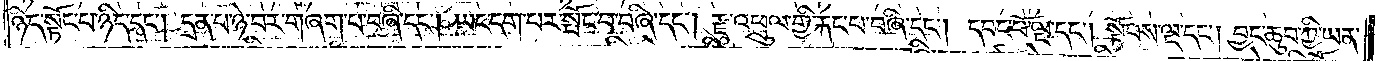ཉིད་སྟོང་པ་ཉིད་དང༌། དྲན་པ་ཉེ་བར་བཞག་པ་བཞི་དང༌། ཡང་དག་པར་སྤོང་བ་བཞི་དང༌། རྫུ་འཕྲུལ་གྱི་རྐང་བ་བཞི་དང༌། དབང་པོ་ལྔ་དང༌། སྟོབས་ལྔ་དང༌། བྱང་ཆུབ་ཀྱི་ཡན་
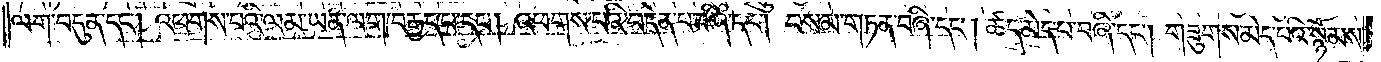ལག་བདུན་དང༌། འཕགས་པའི་ལམ་ཡན་ལག་བརྒྱད་པ་དང༌། འཕགས་པའི་བདེན་པ་བཞི་དང༌། བསམ་གཏན་བཞི་དང༌། ཚད་མེད་པ་བཞི་དང༌། གཟུགས་མེད་པའི་སྙོམས་
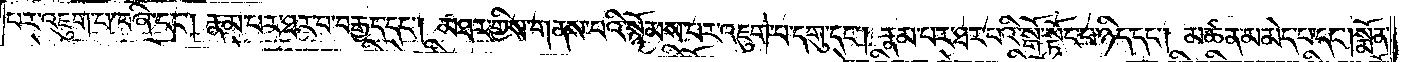པར་འཇུག་པ་བཞི་དང༌། རྣམ་པར་ཐར་པ་བརྒྱད་དང༌། མཐར་གྱིས་གནས་པའི་སྙོམས་པར་འཇུག་པ་དགུ་དང༌། རྣམ་པར་ཐར་པའི་སྒོ་སྟོང་པ་ཉིད་དང༌། མཚན་མ་མེད་པ་དང༌། སྨོན་
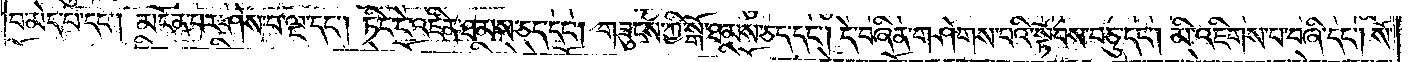པ་མེད་པ་དང༌། མངོན་པར་ཤེས་པ་ལྔ་དང༌། ཏིང་ངེ་འཛིན་ཐམས་ཅད་དང༌། གཟུངས་ཀྱི་སྒོ་ཐམས་ཅད་དང༌། དེ་བཞིན་གཤེགས་པའི་སྟོབས་བཅུ་དང༌། མི་འཇིགས་པ་བཞི་དང༌། སོ་
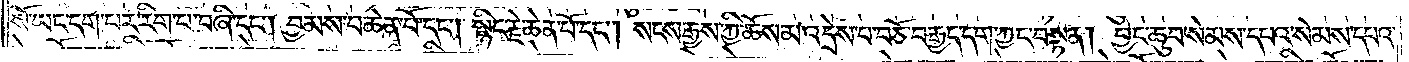སོ་ཡང་དག་པར་རིག་པ་བཞི་དང༌། བྱམས་པ་ཆེན་པོ་དང༌། སྙིང་རྗེ་ཆེན་པོ་དང༌། སངས་རྒྱས་ཀྱི་ཆོས་མ་འདྲེས་པ་བཅོ་བརྒྱད་དག་ཀྱང་བསྟན། བྱང་ཆུབ་སེམས་དཔའ་སེམས་དཔའ་
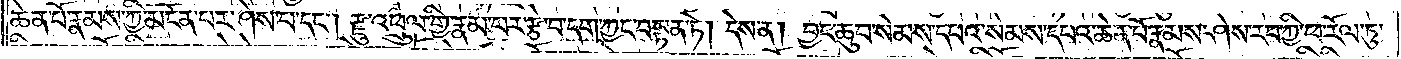ཆེན་པོ་རྣམས་ཀྱི་མངོན་པར་ཤེས་པ་དང༌། རྫུ་འཕྲུལ་གྱི་རྣམ་པར་རྩེ་བ་དག་ཀྱང་བསྟན་ཏེ། དེས་ན། བྱང་ཆུབ་སེམས་དཔའ་སེམས་དཔའ་ཆེན་པོ་རྣམས་ཤེས་རབ་ཀྱི་ཕ་རོལ་ཏུ་
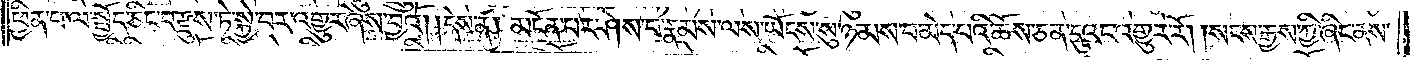ཕྱིན་པ་ལ་སྤྱོད་ཅིང་བརྫུས་ཏེ་སྐྱེ་བར་འགྱུར་ཞེས་བྱའོ། །དེས་ན། མངོན་པར་ཤེས་པ་རྣམས་ལས་ཡོངས་སུ་ཉམས་པ་མེད་པའི་ཆོས་ཅན་དུའང་འགྱུར་རོ། །སངས་རྒྱས་ཀྱི་ཞིང་ནས་
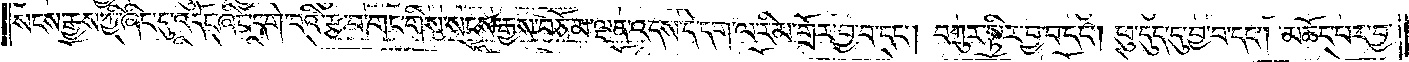སངས་རྒྱས་ཀྱི་ཞིང་དུ་འདོང་ཞིང་དགེ་བའི་རྩ་བ་གང་གིས་སངས་རྒྱས་བཅོམ་ལྡན་འདས་དེ་དག་ལ་རིམ་གྲོར་བྱ་བ་དང༌། བཀུར་སྟིར་བྱ་བ་དང༌། ཕུ་དུད་དུ་བྱ་བ་དང༌། མཆོད་པར་བྱ་
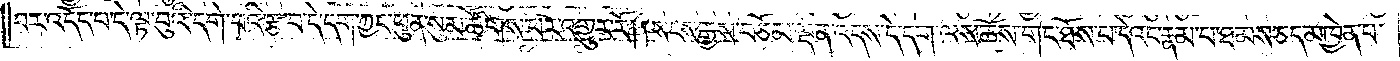བར་འདོད་པ་དེ་ལྟ་བུའི་དགེ་བའི་རྩ་བ་དེ་དག་ཀྱང་ཕུན་སུམ་ཚོགས་པར་འགྱུར་རོ། །སངས་རྒྱས་བཅོམ་ལྡན་འདས་དེ་དག་ལས་ཆོས་གང་ཐོས་པ་དེའང་རྣམ་པ་ཐམས་ཅད་མཁྱེན་པ་
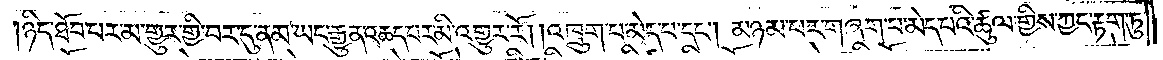ཉིད་ཐོབ་པར་མ་གྱུར་གྱི་བར་དུ་ནམ་ཡང་རྒྱུན་ཆད་པར་མི་འགྱུར་རོ། །འཁྲུག་པ་མེད་པ་དང༌། མཉམ་པར་གཞག་པ་མེད་པའི་ཚུལ་གྱིས་ཀྱང་རྟག་ཏུ་
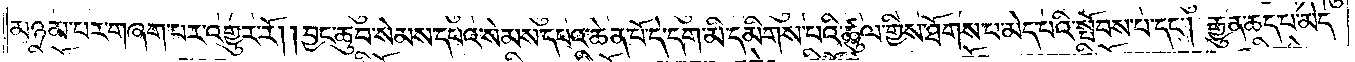མཉམ་པར་གཞག་པར་འགྱུར་རོ། །བྱང་ཆུབ་སེམས་དཔའ་སེམས་དཔའ་ཆེན་པོ་དེ་དག་མི་དམིགས་པའི་ཚུལ་གྱིས་ཐོགས་པ་མེད་པའི་སྤོབས་པ་དང༌། རྒྱུན་ཆད་པ་མེད་
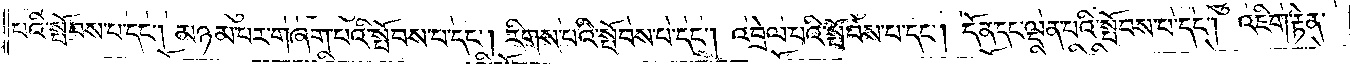པའི་སྤོབས་པ་དང༌། མཉམ་པར་གཞག་པའི་སྤོབས་པ་དང༌། རིགས་པའི་སྤོབས་པ་དང༌། འབྲེལ་པའི་སྤོབས་པ་དང༌། དོན་དང་ལྡན་པའི་སྤོབས་བ་དང༌། འཇིག་རྟེན་
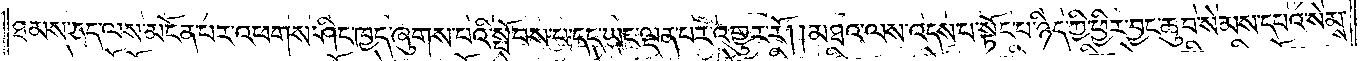ཐམས་ཅད་ལས་མངོན་པར་འཕགས་ཤིང་ཁྱད་ཞུགས་པའི་སྤོབས་བ་དང་ཡང་ལྡན་པར་འགྱུར་རོ། །མཐའ་ལས་འདས་པ་སྟོང་པ་ཉིད་ཀྱི་ཕྱིར་བྱང་ཆུབ་སེམས་དཔའ་སེམས་
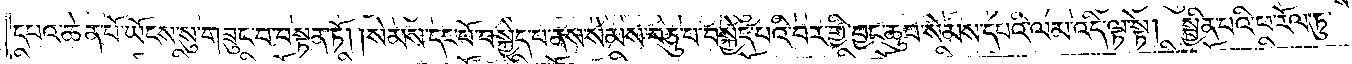དཔའ་ཆེན་པོ་ཡོངས་སུ་བཟུང་བ་བསྟན་ཏོ། །སེམས་དང་པོ་བསྐྱེད་པ་ནས་སེམས་བཅུ་པ་བསྐྱེད་པའི་བར་གྱི་བྱང་ཆུབ་སེམས་དཔའི་ལམ་འདི་ལྟ་སྟེ། སྦྱིན་པའི་ཕ་རོལ་ཏུ་
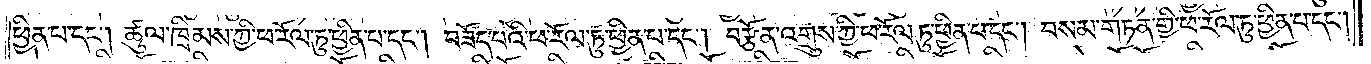ཕྱིན་པ་དང༌། ཚུལ་ཁྲིམས་ཀྱི་ཕ་རོལ་ཏུ་ཕྱིན་པ་དང༌། བཟོད་པའི་ཕ་རོལ་ཏུ་ཕྱིན་པ་དང༌། བརྩོན་འགྲུས་ཀྱི་ཕ་རོལ་ཏུ་ཕྱིན་པ་དང༌། བསམ་གཏན་གྱི་ཕ་རོལ་ཏུ་ཕྱིན་པ་དང༌།
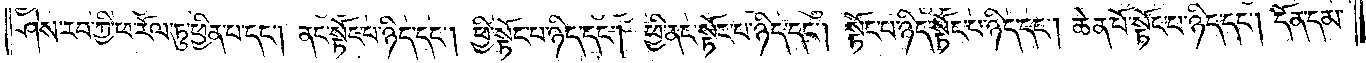ཤེས་རབ་ཀྱི་ཕ་རོལ་ཏུ་ཕྱིན་པ་དང༌། ནང་སྟོང་པ་ཉིད་དང༌། ཕྱི་སྟོང་པ་ཉིད་དང༌། ཕྱི་ནང་སྟོང་པ་ཉིད་དང༌། སྟོང་པ་ཉིད་སྟོང་པ་ཉིད་དང༌། ཆེན་པོ་སྟོང་པ་ཉིད་དང༌། དོན་དམ་
